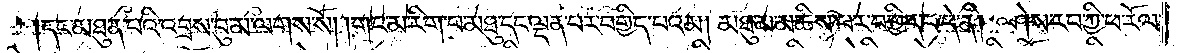དང་མཐུན་པའི་འབྲས་བུ་མ་ལགས་སོ། །གང་མ་རིག་པ་མཐུ་དང་ལྡན་པར་བགྱིད་པའམ། མཐུ་མ་མཆིས་པར་བགྱིད་པ་དེ་ནི། ཤེས་རབ་ཀྱི་ཕ་རོལ་
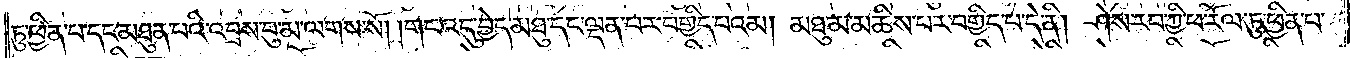ཏུ་ཕྱིན་པ་དང་མཐུན་པའི་འབྲས་བུ་མ་ལགས་སོ། །གང་འདུ་བྱེད་མཐུ་དང་ལྡན་པར་བགྱིད་པའམ། མཐུ་མ་མཆིས་པར་བགྱིད་པ་དེ་ནི། ཤེས་རབ་ཀྱི་ཕ་རོལ་ཏུ་ཕྱིན་པ་
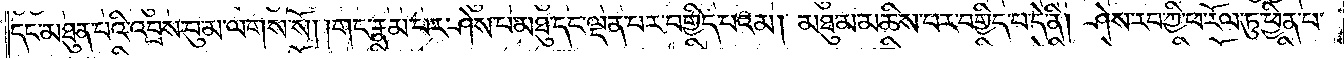དང་མཐུན་པའི་འབྲས་བུ་མ་ལགས་སོ། །གང་རྣམ་པར་ཤེས་པ་མཐུ་དང་ལྡན་པར་བགྱིད་པའམ། མཐུ་མ་མཆིས་པར་བགྱིད་པ་དེ་ནི། ཤེས་རབ་ཀྱི་ཕ་རོལ་ཏུ་ཕྱིན་པ་
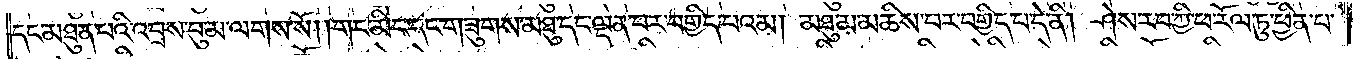དང་མཐུན་པའི་འབྲས་བུ་མ་ལགས་སོ། །གང་མིང་དང་གཟུགས་མཐུ་དང་ལྡན་པར་བགྱིད་པའམ། མཐུ་མ་མཆིས་པར་བགྱིད་པ་དེ་ནི། ཤེས་རབ་ཀྱི་ཕ་རོལ་ཏུ་ཕྱིན་པ་
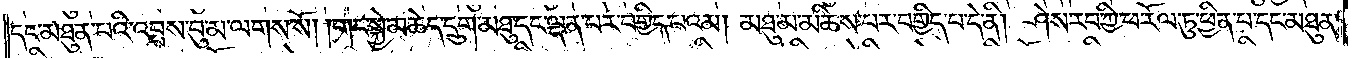དང་མཐུན་པའི་འབྲས་བུ་མ་ལགས་སོ། །གང་སྐྱེ་མཆེད་དྲུག་མཐུ་དང་ལྡན་པར་བགྱིད་པའམ། མཐུ་མ་མཆིས་པར་བགྱིད་པ་དེ་ནི། ཤེས་རབ་ཀྱི་ཕ་རོལ་ཏུ་ཕྱིན་པ་དང་མཐུན་
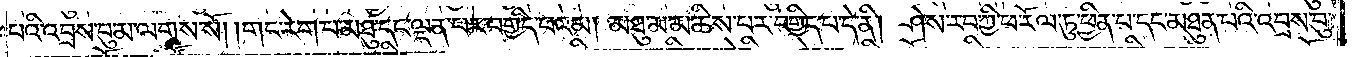པའི་འབྲས་བུ་མ་ལགས་སོ། །གང་རེག་པ་མཐུ་དང་ལྡན་པར་བགྱིད་པའམ། མཐུ་མ་མཆིས་པར་བགྱིད་པ་དེ་ནི། ཤེས་རབ་ཀྱི་ཕ་རོལ་ཏུ་ཕྱིན་པ་དང་མཐུན་པའི་འབྲས་བུ་
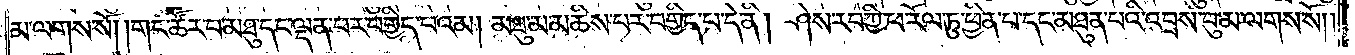མ་ལགས་སོ། །གང་ཚོར་བ་མཐུ་དང་ལྡན་པར་བགྱིད་པའམ། མཐུ་མ་མཆིས་པར་བགྱིད་པ་དེ་ནི། ཤེས་རབ་ཀྱི་ཕ་རོལ་ཏུ་ཕྱིན་པ་དང་མཐུན་པའི་འབྲས་བུ་མ་ལགས་སོ། །
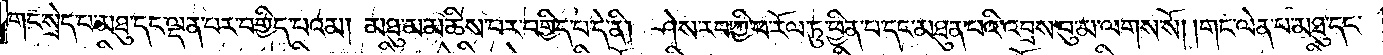གང་སྲེད་པ་མཐུ་དང་ལྡན་པར་བགྱིད་པའམ། མཐུ་མ་མཆིས་པར་བགྱིད་པ་དེ་ནི། ཤེས་རབ་ཀྱི་ཕ་རོལ་ཏུ་ཕྱིན་པ་དང་མཐུན་པའི་འབྲས་བུ་མ་ལགས་སོ། །གང་ལེན་པ་མཐུ་དང་
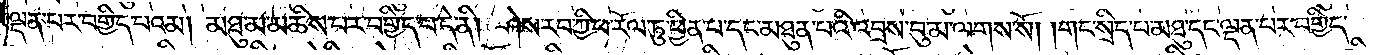ལྡན་པར་བགྱིད་པའམ། མཐུ་མ་མཆིས་པར་བགྱིད་པ་དེ་ནི། ཤེས་རབ་ཀྱི་ཕ་རོལ་ཏུ་ཕྱིན་པ་དང་མཐུན་པའི་འབྲས་བུ་མ་ལགས་སོ། །གང་སྲིད་པ་མཐུ་དང་ལྡན་པར་བགྱིད་
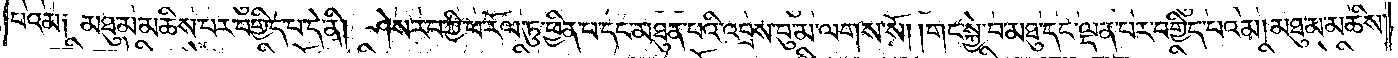པའམ༑ མཐུ་མ་མཆིས་པར་བགྱིད་པ་དེ་ནི། ཤེས་རབ་ཀྱི་ཕ་རོལ་ཏུ་ཕྱིན་པ་དང་མཐུན་པའི་འབྲས་བུ་མ་ལགས་སོ། །གང་སྐྱེ་བ་མཐུ་དང་ལྡན་པར་བགྱིད་པའམ། མཐུ་མ་མཆིས་
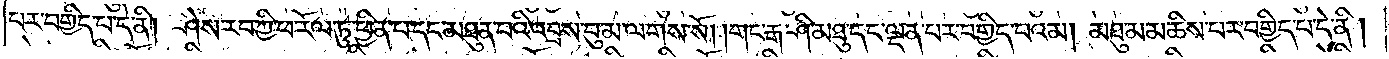པར་བགྱིད་པ་དེ་ནི། ཤེས་རབ་ཀྱི་ཕ་རོལ་ཏུ་ཕྱིན་པ་དང་མཐུན་པའི་འབྲས་བུ་མ་ལགས་སོ། །གང་རྒ་ཤི་མཐུ་དང་ལྡན་པར་བགྱིད་པའམ། མཐུ་མ་མཆིས་པར་བགྱིད་པ་དེ་ནི།
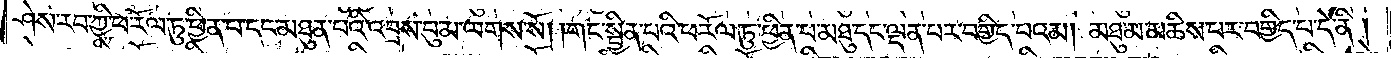ཤེས་རབ་ཀྱི་ཕ་རོལ་ཏུ་ཕྱིན་པ་དང་མཐུན་པའི་འབྲས་བུ་མ་ལགས་སོ། །གང་སྦྱིན་པའི་ཕ་རོལ་ཏུ་ཕྱིན་པ་མཐུ་དང་ལྡན་པར་བགྱིད་པའམ། མཐུ་མ་མཆིས་པར་བགྱིད་པ་དེ་ནི།
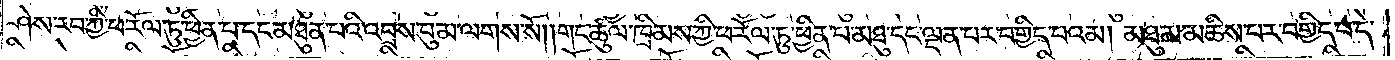ཤེས་རབ་ཀྱི་ཕ་རོལ་ཏུ་ཕྱིན་པ་དང་མཐུན་པའི་འབྲས་བུ་མ་ལགས་སོ། །གང་ཚུལ་ཁྲིམས་ཀྱི་ཕ་རོལ་ཏུ་ཕྱིན་པ་མཐུ་དང་ལྡན་པར་བགྱིད་པའམ། མཐུ་མ་མཆིས་པར་བགྱིད་པ་དེ་
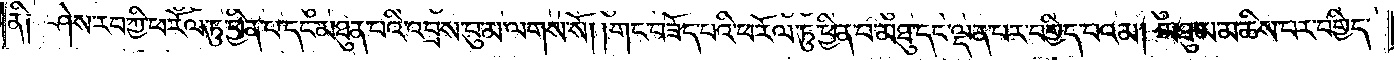ནི༑ ཤེས་རབ་ཀྱི་ཕ་རོལ་ཏུ་ཕྱིན་པ་དང་མཐུན་པའི་འབྲས་བུ་མ་ལགས་སོ། །གང་བཟོད་པའི་ཕ་རོལ་ཏུ་ཕྱིན་པ་མཐུ་དང་ལྡན་པར་བགྱིད་པའམ། མཐུ་མ་མཆིས་པར་བགྱིད་
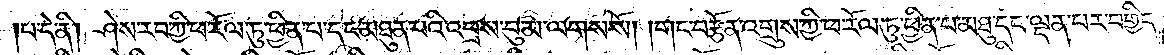པ་དེ་ནི། ཤེས་རབ་ཀྱི་ཕ་རོལ་ཏུ་ཕྱིན་པ་དང་མཐུན་པའི་འབྲས་བུ་མ་ལགས་སོ། །གང་བརྩོན་འགྲུས་ཀྱི་ཕ་རོལ་ཏུ་ཕྱིན་པ་མཐུ་དང་ལྡན་པར་བགྱིད་
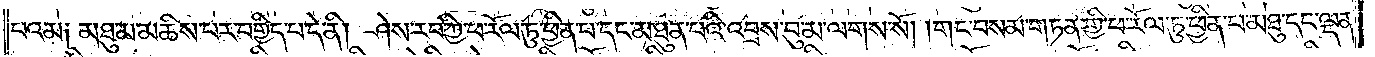པའམ༑ མཐུ་མ་མཆིས་པར་བགྱིད་པ་དེ་ནི། ཤེས་རབ་ཀྱི་ཕ་རོལ་ཏུ་ཕྱིན་པ་དང་མཐུན་པའི་འབྲས་བུ་མ་ལགས་སོ། །གང་བསམ་གཏན་གྱི་ཕ་རོལ་ཏུ་ཕྱིན་པ་མཐུ་དང་ལྡན་
